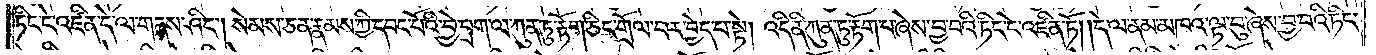ཏིང་ངེ་འཛིན་དེ་ལ་གནས་ཤིང༌། སེམས་ཅན་རྣམས་ཀྱི་དབང་པོའི་བྱེ་བྲག་ལ་ཀུན་ཏུ་རྟོག་ཅིང་གྲོལ་བར་བྱེད་པ་སྟེ། འདི་ནི་ཀུན་ཏུ་རྟོག་པ་ཞེས་བྱ་བའི་ཏིང་ངེ་འཛིན་ཏོ། །དེ་ལ་ནམ་མཁའ་ལྟ་བུ་ཞེས་བྱ་བའི་ཏིང་
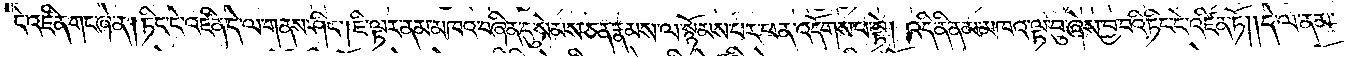ངེ་འཛིན་གང་ཞེ་ན། ཏིང་ངེ་འཛིན་དེ་ལ་གནས་ཤིང༌། ཇི་ལྟར་ནམ་མཁའ་བཞིན་དུ་སེམས་ཅན་རྣམས་ལ་སྙོམས་པར་ཕན་འདོགས་པ་སྟེ། འདི་ནི་ནམ་མཁའ་ལྟ་བུ་ཞེས་བྱ་བའི་ཏིང་ངེ་འཛིན་ཏོ། །དེ་ལ་ནམ་
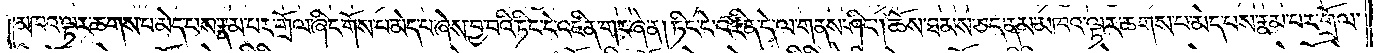མཁའ་ལྟར་ཆགས་པ་མེད་པས་རྣམ་པར་གྲོལ་ཞིང་གོས་པ་མེད་པ་ཞེས་བྱ་བའི་ཏིང་ངེ་འཛིན་གང་ཞེ་ན། ཏིང་ངེ་འཛིན་དེ་ལ་གནས་ཤིང༌། ཆོས་ཐམས་ཅད་ནམ་མཁའ་ལྟར་ཆགས་པ་མེད་པས་རྣམ་པར་གྲོལ་
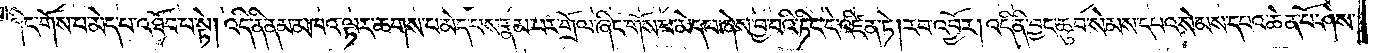ཞིང་གོས་པ་མེད་པ་འཐོབ་པ་སྟེ། འདི་ནི་ནམ་མཁའ་ལྟར་ཆགས་པ་མེད་པས་རྣམ་པར་གྲོལ་ཞིང་གོས་པ་མེད་པ་ཞེས་བྱ་བའི་ཏིང་ངེ་འཛིན་ཏེ། རབ་འབྱོར། འདི་ནི་བྱང་ཆུབ་སེམས་དཔའ་སེམས་དཔའ་ཆེན་པོ་ཤེས་
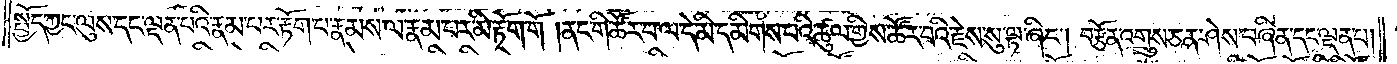སྤྱོད་ཀྱང་ལུས་དང་ལྡན་པའི་རྣམ་པར་རྟོག་པ་རྣམས་ལ་རྣམ་པར་མི་རྟོག་གོ །ནང་གི་ཚོར་བ་ལ་དེ་མི་དམིགས་པའི་ཚུལ་གྱིས་ཚོར་བའི་རྗེས་སུ་ལྟ་ཞིང༌། བརྩོན་འགྲུས་ཅན་ཤེས་བཞིན་དང་ལྡན་པ།
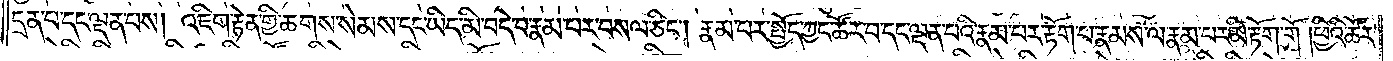དྲན་པ་དང་ལྡན་པས། འཇིག་རྟེན་གྱི་ཆགས་སེམས་དང་ཡིད་མི་བདེ་བ་རྣམ་པར་བསལ་ཅིང༌། རྣམ་པར་སྤྱོད་ཀྱང་ཚོར་བ་དང་ལྡན་པའི་རྣམ་པར་རྟོག་པ་རྣམས་ལ་རྣམ་པར་མི་རྟོག་གོ །ཕྱིའི་ཚོར་
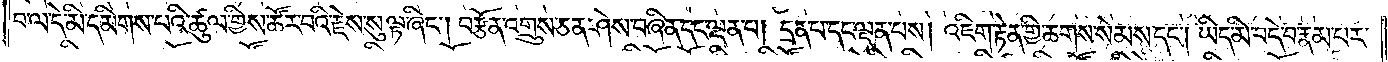བ་ལ་དེ་མི་དམིགས་པའི་ཚུལ་གྱིས་ཚོར་བའི་རྗེས་སུ་ལྟ་ཞིང༌། བརྩོན་འགྲུས་ཅན་ཤེས་བཞིན་དང་ལྡན་པ། དྲན་པ་དང་ལྡན་པས། འཇིག་རྟེན་གྱི་ཆགས་སེམས་དང༌། ཡིད་མི་བདེ་བ་རྣམ་པར་
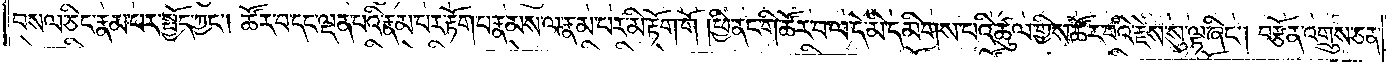བསལ་ཅིང་རྣམ་པར་སྤྱོད་ཀྱང༌། ཚོར་བ་དང་ལྡན་པའི་རྣམ་པར་རྟོག་པ་རྣམས་ལ་རྣམ་པར་མི་རྟོག་གོ །ཕྱི་ནང་གི་ཚོར་བ་ལ་དེ་མི་དམིགས་པའི་ཚུལ་གྱིས་ཚོར་བའི་རྗེས་སུ་ལྟ་ཞིང༌། བརྩོན་འགྲུས་ཅན་
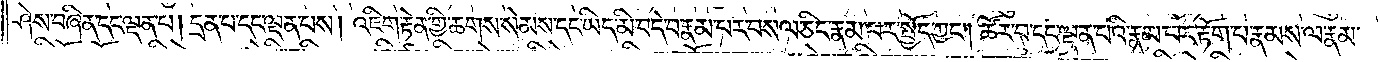ཤེས་བཞིན་དང་ལྡན་པ། དྲན་པ་དང་ལྡན་པས། འཇིག་རྟེན་གྱི་ཆགས་སེམས་དང་ཡིད་མི་བདེ་བ་རྣམ་པར་བསལ་ཅིང་རྣམ་པར་སྤྱོད་ཀྱང༌། ཚོར་བ་དང་ལྡན་པའི་རྣམ་པར་རྟོག་པ་རྣམས་ལ་རྣམ་
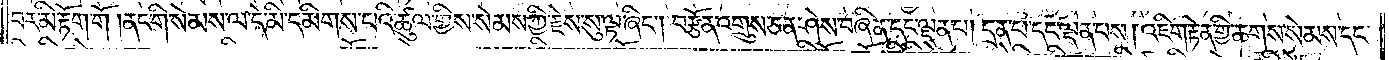པར་མི་རྟོག་གོ །ནང་གི་སེམས་ལ་དེ་མི་དམིགས་པའི་ཚུལ་གྱིས་སེམས་ཀྱི་རྗེས་སུ་ལྟ་ཞིང༌། བརྩོན་འགྲུས་ཅན་ཤེས་བཞིན་དང་ལྡན་པ། དྲན་པ་དང་ལྡན་པས། འཇིག་རྟེན་གྱི་ཆགས་སེམས་དང་
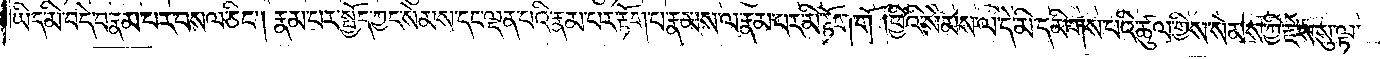ཡིད་མི་བདེ་བ་རྣམ་པར་བསལ་ཅིང༌། རྣམ་པར་སྤྱོད་ཀྱང་སེམས་དང་ལྡན་པའི་རྣམ་པར་རྟོག་པ་རྣམས་ལ་རྣམ་པར་མི་རྟོག་གོ །ཕྱིའི་སེམས་ལ་དེ་མི་དམིགས་པའི་ཚུལ་གྱིས་སེམས་ཀྱི་རྗེས་སུ་ལྟ་
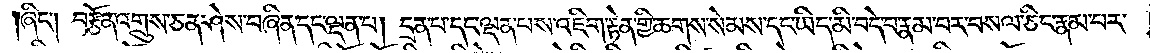ཞིང༌། བརྩོན་འགྲུས་ཅན་ཤེས་བཞིན་དང་ལྡན་པ། དྲན་པ་དང་ལྡན་པས་འཇིག་རྟེན་གྱི་ཆགས་སེམས་དང་ཡིད་མི་བདེ་བ་རྣམ་པར་བསལ་ཅིང་རྣམ་པར་
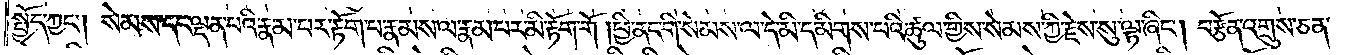སྤྱོད་ཀྱང༌། སེམས་དང་ལྡན་པའི་རྣམ་པར་རྟོག་པ་རྣམས་ལ་རྣམ་པར་མི་རྟོག་གོ །ཕྱི་ནང་གི་སེམས་ལ་དེ་མི་དམིགས་པའི་ཚུལ་གྱིས་སེམས་ཀྱི་རྗེས་སུ་ལྟ་ཞིང༌། བརྩོན་འགྲུས་ཅན་
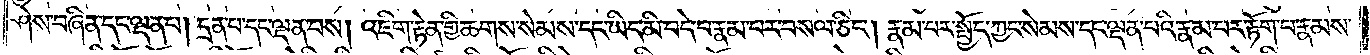ཤེས་བཞིན་དང་ལྡན་པ། དྲན་པ་དང་ལྡན་པས། འཇིག་རྟེན་གྱི་ཆགས་སེམས་དང་ཡིད་མི་བདེ་བ་རྣམ་པར་བསལ་ཅིང༌། རྣམ་པར་སྤྱོད་ཀྱང་སེམས་དང་ལྡན་པའི་རྣམ་པར་རྟོག་པ་རྣམས་
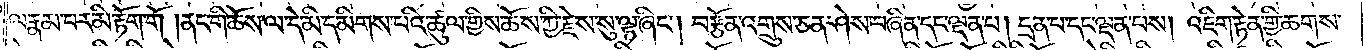ལ་རྣམ་པར་མི་རྟོག་གོ །ནང་གི་ཆོས་ལ་དེ་མི་དམིགས་པའི་ཚུལ་གྱིས་ཆོས་ཀྱི་རྗེས་སུ་ལྟ་ཞིང༌། བརྩོན་འགྲུས་ཅན་ཤེས་བཞིན་དང་ལྡན་པ། དྲན་པ་དང་ལྡན་པས། འཇིག་རྟེན་གྱི་ཆགས་
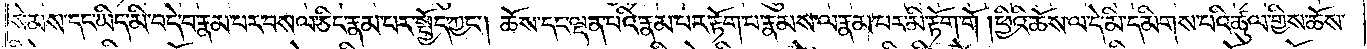སེམས་དང་ཡིད་མི་བདེ་བ་རྣམ་པར་བསལ་ཅིང་རྣམ་པར་སྤྱོད་ཀྱང༌། ཆོས་དང་ལྡན་པའི་རྣམ་པར་རྟོག་པ་རྣམས་ལ་རྣམ་པར་མི་རྟོག་གོ །ཕྱིའི་ཆོས་ལ་དེ་མི་དམིགས་པའི་ཚུལ་གྱིས་ཆོས་
